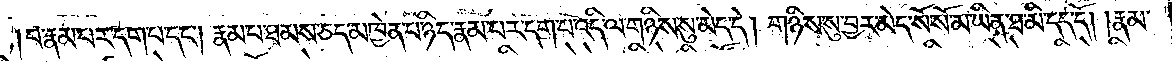བ་རྣམ་པར་དག་པ་དང༌། རྣམ་པ་ཐམས་ཅད་མཁྱེན་པ་ཉིད་རྣམ་པར་དག་པ་འདི་ལ་གཉིས་སུ་མེད་དེ། གཉིས་སུ་བྱར་མེད་སོ་སོ་མ་ཡིན་ཐ་མི་དད་དོ། །རྣམ་
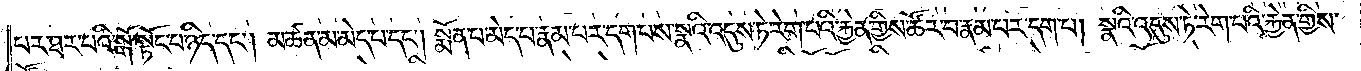པར་ཐར་པའི་སྒོ་སྟོང་པ་ཉིད་དང༌། མཚན་མ་མེད་པ་དང༌། སྨོན་པ་མེད་པ་རྣམ་པར་དག་པས་སྣའི་འདུས་ཏེ་རེག་པའི་རྐྱེན་གྱིས་ཚོར་བ་རྣམ་པར་དག་པ། སྣའི་འདུས་ཏེ་རེག་པའི་རྐྱེན་གྱིས་
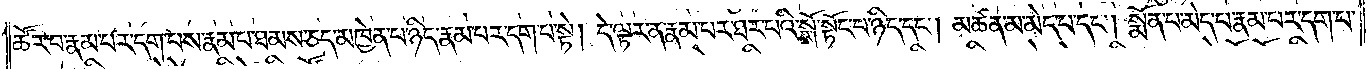ཚོར་བ་རྣམ་པར་དག་པས་རྣམ་པ་ཐམས་ཅད་མཁྱེན་པ་ཉིད་རྣམ་པར་དག་པ་སྟེ། དེ་ལྟར་ན་རྣམ་པར་ཐར་པའི་སྒོ་སྟོང་པ་ཉིད་དང༌། མཚན་མ་མེད་པ་དང༌། སྨོན་པ་མེད་པ་རྣམ་པར་དག་པ་
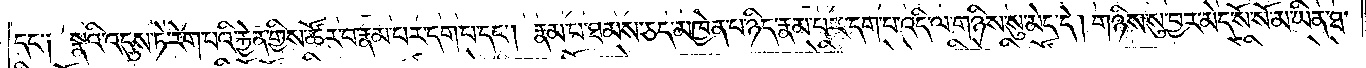དང་༑ སྣའི་འདུས་ཏེ་རེག་པའི་རྐྱེན་གྱིས་ཚོར་བ་རྣམ་པར་དག་པ་དང༌། རྣམ་པ་ཐམས་ཅད་མཁྱེན་པ་ཉིད་རྣམ་པར་དག་པ་འདི་ལ་གཉིས་སུ་མེད་དེ། གཉིས་སུ་བྱར་མེད་སོ་སོ་མ་ཡིན་ཐ་
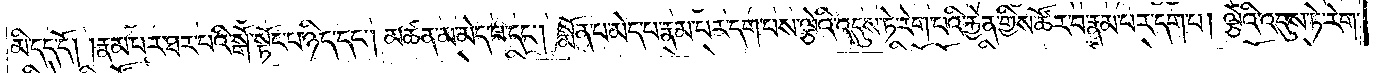མི་དད་དོ། །རྣམ་པར་ཐར་པའི་སྒོ་སྟོང་པ་ཉིད་དང༌། མཚན་མ་མེད་པ་དང༌། སྨོན་པ་མེད་པ་རྣམ་པར་དག་པས་ལྕེའི་འདུས་ཏེ་རེག་པའི་རྐྱེན་གྱིས་ཚོར་བ་རྣམ་པར་དག་པ། ལྕེའི་འདུས་ཏེ་རེག་
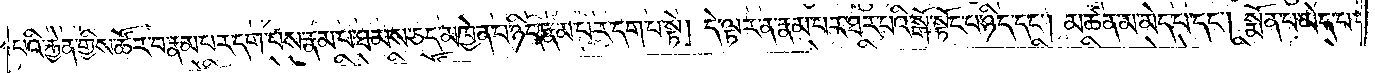པའི་རྐྱེན་གྱིས་ཚོར་བ་རྣམ་པར་དག་པས་རྣམ་པ་ཐམས་ཅད་མཁྱེན་པ་ཉིད་རྣམ་པར་དག་པ་སྟེ། དེ་ལྟར་ན་རྣམ་པར་ཐར་པའི་སྒོ་སྟོང་པ་ཉིད་དང༌། མཚན་མ་མེད་པ་དང༌། སྨོན་པ་མེད་པ་
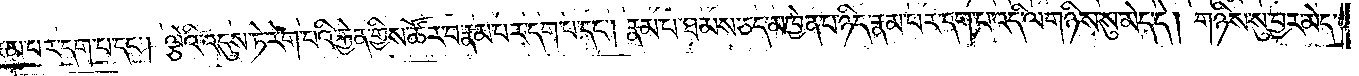རྣམ་པར་དག་པ་དང༌། ལྕེའི་འདུས་ཏེ་རེག་པའི་རྐྱེན་གྱིས་ཚོར་བ་རྣམ་པར་དག་པ་དང༌། རྣམ་པ་ཐམས་ཅད་མཁྱེན་པ་ཉིད་རྣམ་པར་དག་པ་འདི་ལ་གཉིས་སུ་མེད་དེ། གཉིས་སུ་བྱར་མེད་
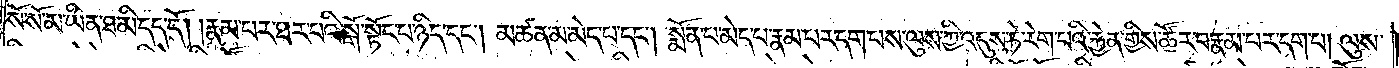སོ་སོ་མ་ཡིན་ཐ་མི་དད་དོ། །རྣམ་པར་ཐར་པའི་སྒོ་སྟོང་པ་ཉིད་དང༌། མཚན་མ་མེད་པ་དང༌། སྨོན་པ་མེད་པ་རྣམ་པར་དག་པས་ལུས་ཀྱི་འདུས་ཏེ་རེག་པའི་རྐྱེན་གྱིས་ཚོར་བ་རྣམ་པར་དག་པ། ལུས་
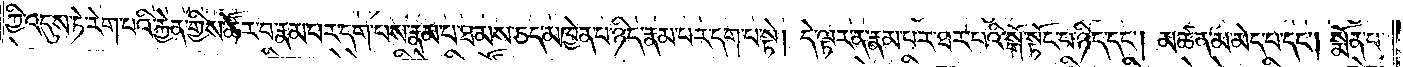ཀྱི་འདུས་ཏེ་རེག་པའི་རྐྱེན་གྱིས་ཚོར་བ་རྣམ་པར་དག་པས་རྣམ་པ་ཐམས་ཅད་མཁྱེན་པ་ཉིད་རྣམ་པར་དག་པ་སྟེ། དེ་ལྟར་ན་རྣམ་པར་ཐར་པའི་སྒོ་སྟོང་པ་ཉིད་དང༌། མཚན་མ་མེད་པ་དང༌། སྨོན་པ་
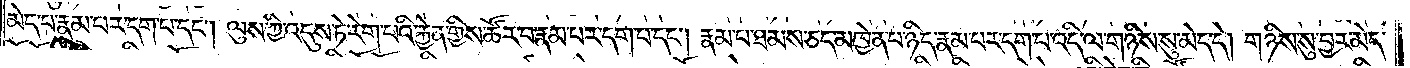མེད་པ་རྣམ་པར་དག་པ་དང༌། ལུས་ཀྱི་འདུས་ཏེ་རེག་པའི་རྐྱེན་གྱིས་ཚོར་བ་རྣམ་པར་དག་པ་དང༌། རྣམ་པ་ཐམས་ཅད་མཁྱེན་པ་ཉིད་རྣམ་པར་དག་པ་འདི་ལ་གཉིས་སུ་མེད་དེ། གཉིས་སུ་བྱར་མེད་
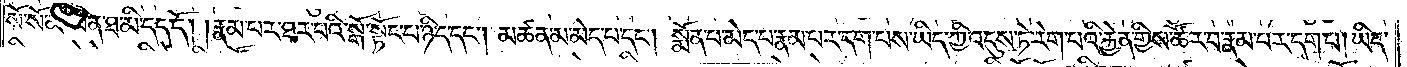སོ་སོ་མ་ཡིན་ཐ་མི་དད་དོ། །རྣམ་པར་ཐར་པའི་སྒོ་སྟོང་པ་ཉིད་དང༌། མཚན་མ་མེད་པ་དང༌། སྨོན་པ་མེད་པ་རྣམ་པར་དག་པས་ཡིད་ཀྱི་འདུས་ཏེ་རེག་པའི་རྐྱེན་གྱིས་ཚོར་བ་རྣམ་པར་དག་པ། ཡིད་
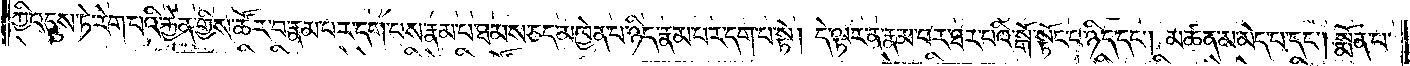ཀྱི་འདུས་ཏེ་རེག་པའི་རྐྱེན་གྱིས་ཚོར་བ་རྣམ་པར་དག་པས་རྣམ་པ་ཐམས་ཅད་མཁྱེན་པ་ཉིད་རྣམ་པར་དག་པ་སྟེ། དེ་ལྟར་ན་རྣམ་པར་ཐར་པའི་སྒོ་སྟོང་པ་ཉིད་དང༌། མཚན་མ་མེད་པ་དང༌། སྨོན་པ་
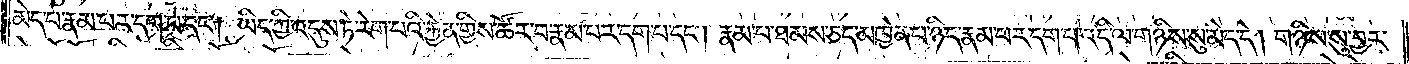མེད་པ་རྣམ་པར་དག་པ་དང༌། ཡིད་ཀྱི་འདུས་ཏེ་རེག་པའི་རྐྱེན་གྱིས་ཚོར་བ་རྣམ་པར་དག་པ་དང༌། རྣམ་པ་ཐམས་ཅད་མཁྱེན་པ་ཉིད་རྣམ་པར་དག་པ་འདི་ལ་གཉིས་སུ་མེད་དེ། གཉིས་སུ་བྱར་
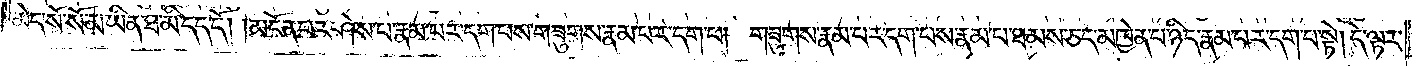མེད་སོ་སོ་མ་ཡིན་ཐ་མི་དད་དོ། །མངོན་པར་ཤེས་པ་རྣམ་པར་དག་པས་གཟུགས་རྣམ་པར་དག་པ། གཟུགས་རྣམ་པར་དག་པས་རྣམ་པ་ཐམས་ཅད་མཁྱེན་པ་ཉིད་རྣམ་པར་དག་པ་སྟེ། དེ་ལྟར་
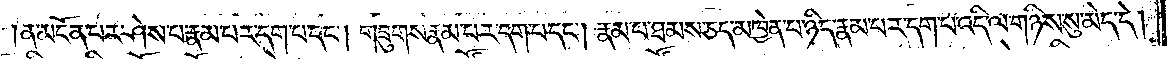ན་མངོན་པར་ཤེས་པ་རྣམ་པར་དག་པ་དང༌། གཟུགས་རྣམ་པར་དག་པ་དང༌། རྣམ་པ་ཐམས་ཅད་མཁྱེན་པ་ཉིད་རྣམ་པར་དག་པ་འདི་ལ་གཉིས་སུ་མེད་དེ།
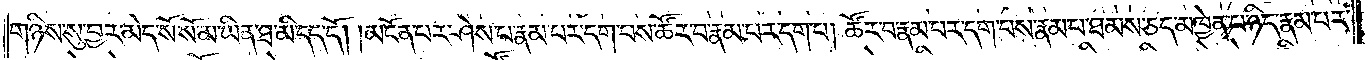གཉིས་སུ་བྱར་མེད་སོ་སོ་མ་ཡིན་ཐ་མི་དད་དོ། །མངོན་པར་ཤེས་པ་རྣམ་པར་དག་པས་ཚོར་བ་རྣམ་པར་དག་པ། ཚོར་བ་རྣམ་པར་དག་པས་རྣམ་པ་ཐམས་ཅད་མཁྱེན་པ་ཉིད་རྣམ་པར་
